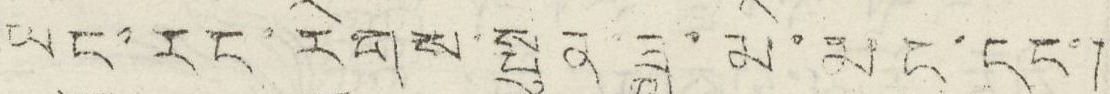ཡང་རང་རིགས་སྤུན་ཟླ་མི་མང་དང་།
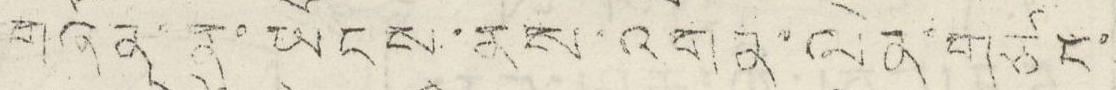གཞོན་ནུ་ཡོངས་ནས་འགན་ལེན་གཙང་
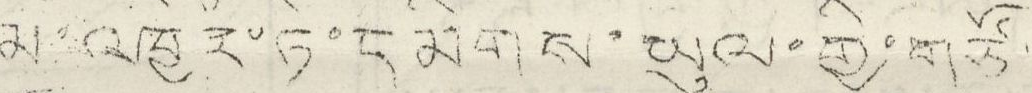མ་འཁྱེར་ཏེ་དམིགས་ཡུལ་གྱི་གཙོ་
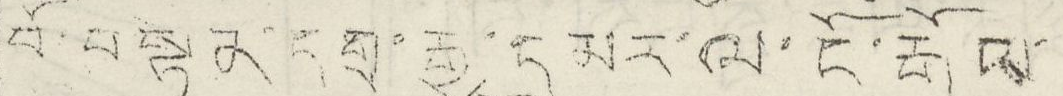བོ་བསྟན་དགྲ་རྒྱ་དམར་ལ་ངོ་རྒོལ་
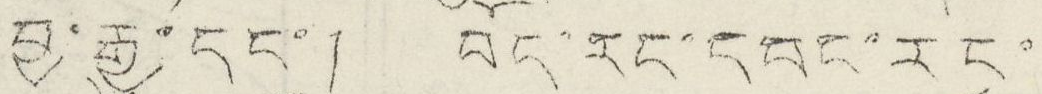བྱ་རྒྱུ་དང་། བོད་རང་དབང་རང་
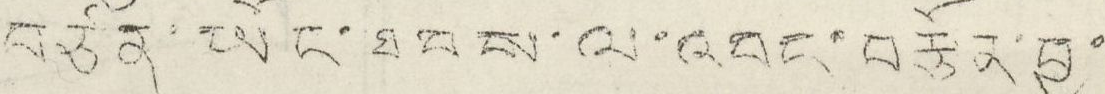བཙན་ཡོང་ཐབས་ལ་འབད་བརྩོན་བྱ་
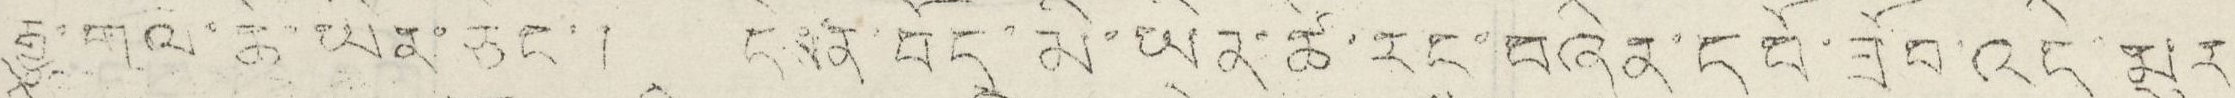རྒྱུ་གལ་ཆེ་ཡིན་ཅིང་། དེས་ན་བོད་མི་ཡིན་ཚེ་རང་བཞིན་དབོ་ཟོབ་འདི་མུར་
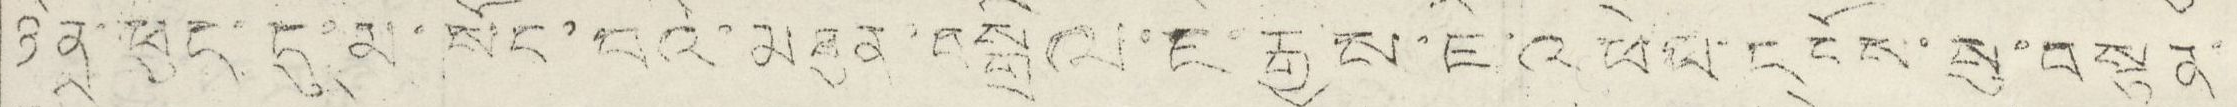ཉིན་ཕུད་དུ་མ་སོང་བའི་མཐུན་བསྒྲིལ་ཇེ་རྒྱས་ཇི་འཕེལ་དངོས་སུ་བསྟན་
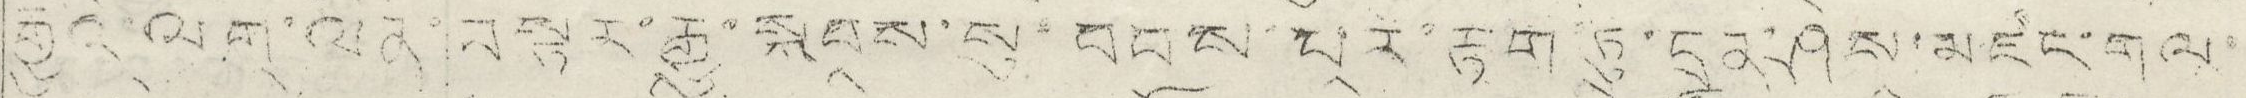རྒྱུའི་ལག་ལེན་བསྟར་རྒྱུ་སྐབས་སུ་བབས་པར་རྟག་ཏུ་དྲན་ཤེས་མཛད་གལ་
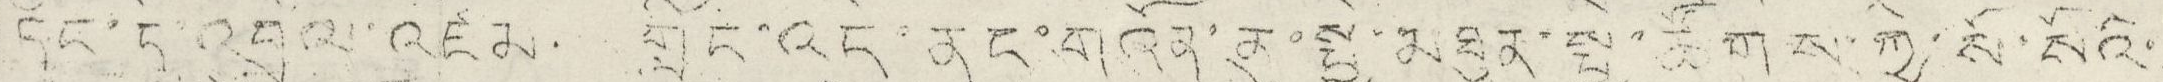དང་དེ་འབྲེལ་འཛམ་ གླིང་འདི་ནང་གཞོན་ནུ་སྤྱི་མཐུན་སྤྱི་ཚོགས་ཀྱི་སོ་སོའི་
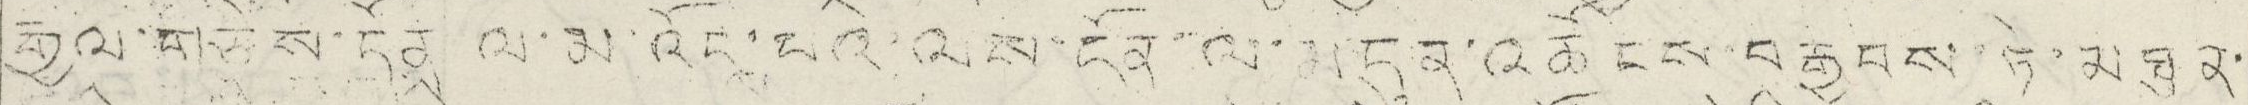རྒྱལ་གཅེས་དོན ལ་མ་ལོངྶ་པའི་ལས་དོན་ལ་མདུན་འཆོངས་བརྒྱབས་ཏེ་མཐུན་
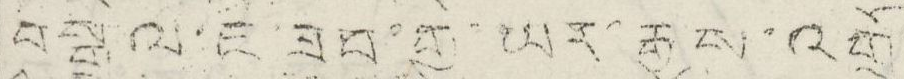བསྒྲིལ་ཇི་ཟབ་གྱི་ཡར་རྒྱས་འགྲོ་
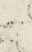བ
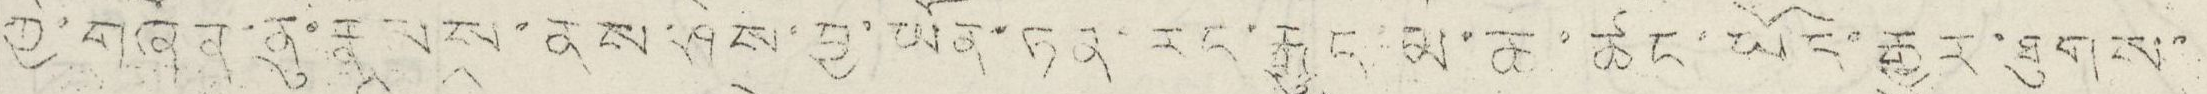ཀྱི་གཞོན་ནུ་རྣམས་ནས་ཤེས་བྱ་ཡོན་ཏན་རང་རྒྱུད་མ་ཆ་ཚང་ཡོང་རྒྱུར་ཐུགས་
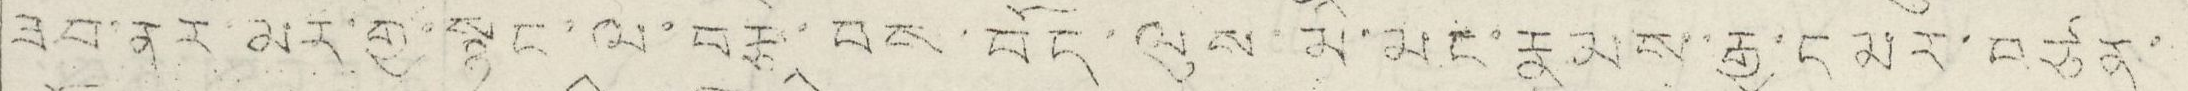ཟབ་ནར་མར་གྱི་སྙིང་ལ་བརྩེ་བས་བོད་ལུས་མི་མང་རྣམས་རྒྱ་དམར་བཙན་
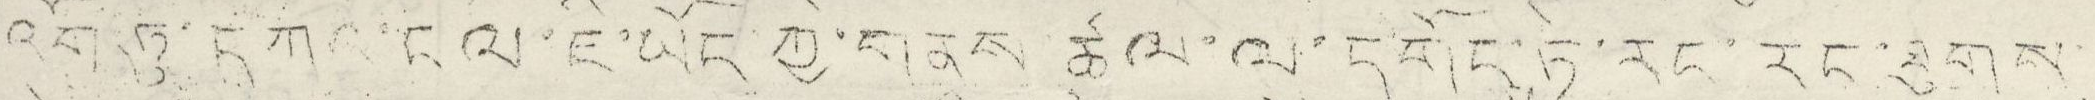འོག་ཏུ་དཀའ་ངལ་ཇི་ཡོད་ཀྱི་གནས་ཚུལ་ལ་དགོངྶ་ཏེ་རང་རང་ཐུགས་
